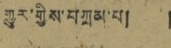གྱུར་གྱིས་བཀྲམ་པ། །
